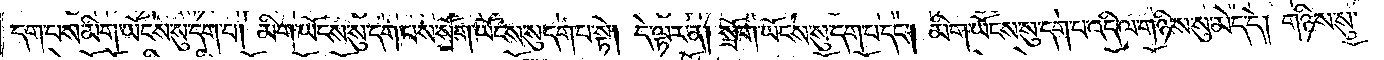དག་པས་མིག་ཡོངས་སུ་དག་པ། མིག་ཡོངས་སུ་དག་པས་སྲོག་ཡོངས་སུ་དག་པ་སྟེ། དེ་ལྟར་ན། སྲོག་ཡོངས་སུ་དག་པ་དང༌། མིག་ཡོངས་སུ་དག་པ་འདི་ལ་གཉིས་སུ་མེད་དེ། གཉིས་སུ་
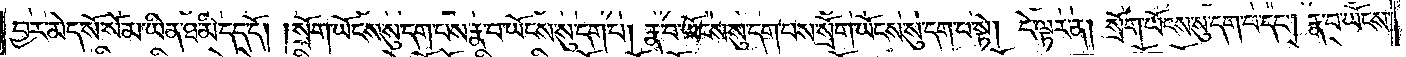བྱར་མེད་སོ་སོ་མ་ཡིན་ཐ་མི་དད་དོ། །སྲོག་ཡོངས་སུ་དག་པས་རྣ་བ་ཡོངས་སུ་དག་པ། རྣ་བ་ཡོངས་སུ་དག་པས་སྲོག་ཡོངས་སུ་དག་པ་སྟེ། དེ་ལྟར་ན། སྲོག་ཡོངས་སུ་དག་པ་དང༌། རྣ་བ་ཡོངས་
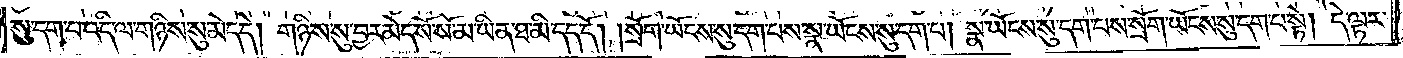སུ་དག་པ་འདི་ལ་གཉིས་སུ་མེད་དེ། གཉིས་སུ་བྱར་མེད་སོ་སོ་མ་ཡིན་ཐ་མི་དད་དོ། །སྲོག་ཡོངས་སུ་དག་པས་སྣ་ཡོངས་སུ་དག་པ། སྣ་ཡོངས་སུ་དག་པས་སྲོག་ཡོངས་སུ་དག་པ་སྟེ། དེ་ལྟར་
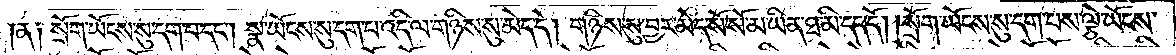ན། སྲོག་ཡོངས་སུ་དག་པ་དང༌། སྣ་ཡོངས་སུ་དག་པ་འདི་ལ་གཉིས་སུ་མེད་དེ། གཉིས་སུ་བྱར་མེད་སོ་སོ་མ་ཡིན་ཐ་མི་དད་དོ། །སྲོག་ཡོངས་སུ་དག་པས་ལྕེ་ཡོངས་
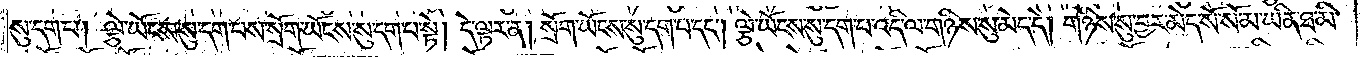སུ་དག་པ། ལྕེ་ཡོངས་སུ་དག་པས་སྲོག་ཡོངས་སུ་དག་པ་སྟེ། དེ་ལྟར་ན། སྲོག་ཡོངས་སུ་དག་པ་དང༌། ལྕེ་ཡོངས་སུ་དག་པ་འདི་ལ་གཉིས་སུ་མེད་དེ། གཉིས་སུ་བྱར་མེད་སོ་སོ་མ་ཡིན་ཐ་མི་
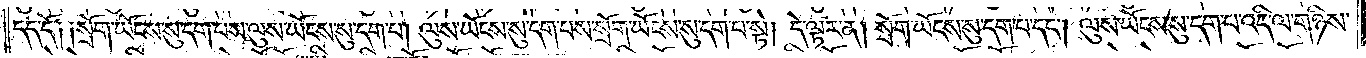དད་དོ༑ ༑སྲོག་ཡོངས་སུ་དག་པས་ལུས་ཡོངས་སུ་དག་པ། ལུས་ཡོངས་སུ་དག་པས་སྲོག་ཡོངས་སུ་དག་པ་སྟེ། དེ་ལྟར་ན། སྲོག་ཡོངས་སུ་དག་པ་དང༌། ལུས་ཡོངས་སུ་དག་པ་འདི་ལ་གཉིས་
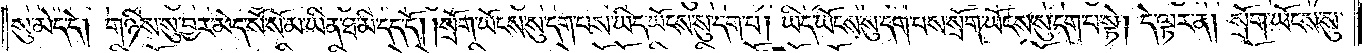སུ་མེད་དེ། གཉིས་སུ་བྱར་མེད་སོ་སོ་མ་ཡིན་ཐ་མི་དད་དོ། །སྲོག་ཡོངས་སུ་དག་པས་ཡིད་ཡོངས་སུ་དག་པ། ཡིད་ཡོངས་སུ་དག་པས་སྲོག་ཡོངས་སུ་དག་པ་སྟེ། དེ་ལྟར་ན། སྲོག་ཡོངས་སུ་
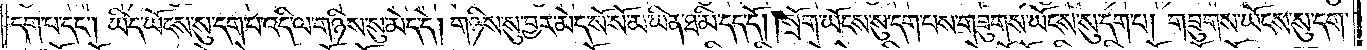དག་པ་དང༌། ཡིད་ཡོངས་སུ་དག་པ་འདི་ལ་གཉིས་སུ་མེད་དེ། གཉིས་སུ་བྱར་མེད་སོ་སོ་མ་ཡིན་ཐ་མི་དད་དོ། །སྲོག་ཡོངས་སུ་དག་པས་གཟུགས་ཡོངས་སུ་དག་པ། གཟུགས་ཡོངས་སུ་དག་
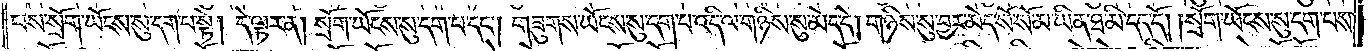པས་སྲོག་ཡོངས་སུ་དག་པ་སྟེ། དེ་ལྟར་ན། སྲོག་ཡོངས་སུ་དག་པ་དང༌། གཟུགས་ཡོངས་སུ་དག་པ་འདི་ལ་གཉིས་སུ་མེད་དེ། གཉིས་སུ་བྱར་མེད་སོ་སོ་མ་ཡིན་ཐ་མི་དད་དོ། །སྲོག་ཡོངས་སུ་དག་པས་
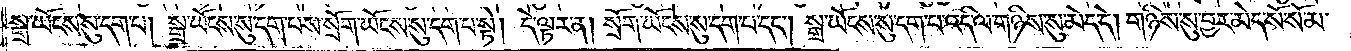སྒྲ་ཡོངས་སུ་དག་པ། སྒྲ་ཡོངས་སུ་དག་པས་སྲོག་ཡོངས་སུ་དག་པ་སྟེ། དེ་ལྟར་ན། སྲོག་ཡོངས་སུ་དག་པ་དང༌། སྒྲ་ཡོངས་སུ་དག་པ་འདི་ལ་གཉིས་སུ་མེད་དེ། གཉིས་སུ་བྱར་མེད་སོ་སོ་མ་
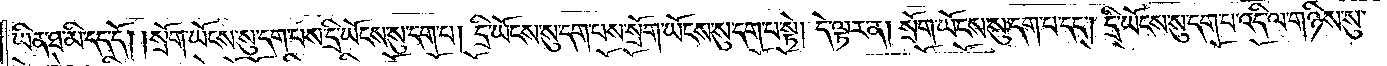ཡིན་ཐ་མི་དད་དོ། །སྲོག་ཡོངས་སུ་དག་པས་དྲི་ཡོངས་སུ་དག་པ། དྲི་ཡོངས་སུ་དག་པས་སྲོག་ཡོངས་སུ་དག་པ་སྟེ། དེ་ལྟར་ན། སྲོག་ཡོངས་སུ་དག་པ་དང༌། དྲི་ཡོངས་སུ་དག་པ་འདི་ལ་གཉིས་སུ་
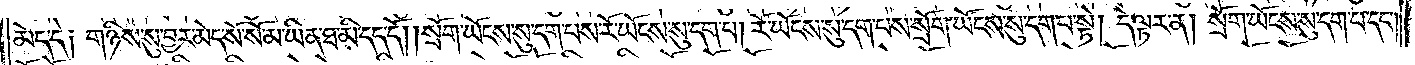མེད་དེ། གཉིས་སུ་བྱར་མེད་སོ་སོ་མ་ཡིན་ཐ་མི་དད་དོ། །སྲོག་ཡོངས་སུ་དག་པས་རོ་ཡོངས་སུ་དག་པ། རོ་ཡོངས་སུ་དག་པས་སྲོག་ཡོངས་སུ་དག་པ་སྟེ། དེ་ལྟར་ན། སྲོག་ཡོངས་སུ་དག་པ་དང༌།
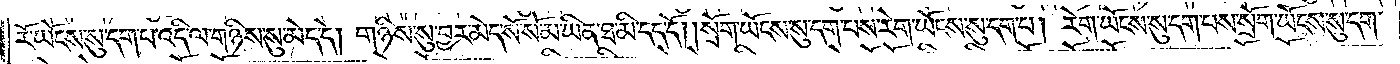རོ་ཡོངས་སུ་དག་པ་འདི་ལ་གཉིས་སུ་མེད་དེ། གཉིས་སུ་བྱར་མེད་སོ་སོ་མ་ཡིན་ཐ་མི་དད་དོ། །སྲོག་ཡོངས་སུ་དག་པས་རེག་ཡོངས་སུ་དག་པ། རེག་ཡོངས་སུ་དག་པས་སྲོག་ཡོངས་སུ་དག་
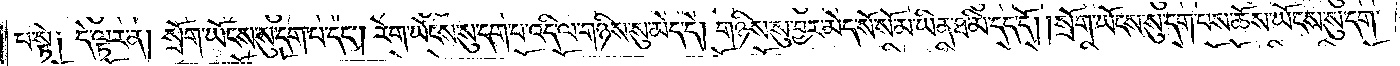པ་སྟེ༑ དེ་ལྟར་ན། སྲོག་ཡོངས་སུ་དག་པ་དང༌། རེག་ཡོངས་སུ་དག་པ་འདི་ལ་གཉིས་སུ་མེད་དེ། གཉིས་སུ་བྱར་མེད་སོ་སོ་མ་ཡིན་ཐ་མི་དད་དོ། །སྲོག་ཡོངས་སུ་དག་པས་ཆོས་ཡོངས་སུ་དག་
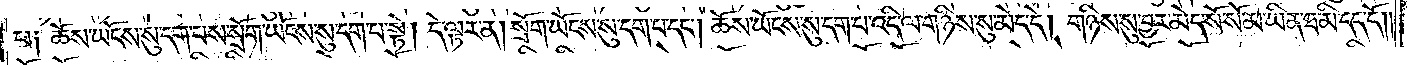པ། ཆོས་ཡོངས་སུ་དག་པས་སྲོག་ཡོངས་སུ་དག་པ་སྟེ། དེ་ལྟར་ན། སྲོག་ཡོངས་སུ་དག་པ་དང༌། ཆོས་ཡོངས་སུ་དག་པ་འདི་ལ་གཉིས་སུ་མེད་དེ། གཉིས་སུ་བྱར་མེད་སོ་སོ་མ་ཡིན་ཐ་མི་དད་དོ། །
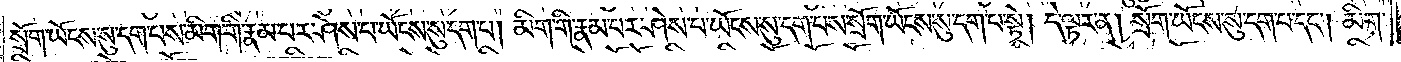སྲོག་ཡོངས་སུ་དག་པས་མིག་གི་རྣམ་པར་ཤེས་པ་ཡོངས་སུ་དག་པ། མིག་གི་རྣམ་པར་ཤེས་པ་ཡོངས་སུ་དག་པས་སྲོག་ཡོངས་སུ་དག་པ་སྟེ། དེ་ལྟར་ན། སྲོག་ཡོངས་སུ་དག་པ་དང༌། མིག་
